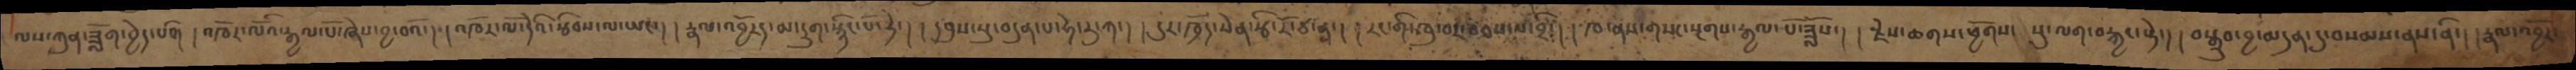ལས་ཀུན་ཟློག་བྱེད་པའི། །འཁོར་ལོའི་རྒྱལ་པོ་ཞེས་བྱ་བའི་། །འཁོར་ལོ་དེའི་རྩིབས་ལ་ཡང་། །རྣལ་འབྱོརད་མ་དྲུག་སྙིང་པོ་ཏེ་། །དབུས་བུ་བདུན་པ་ཧེ་རུ་ཀ་། །དུད་ཁྲོད་སེན་རྩི་རོ་ཙ་ན་། །རང་གི་ཁུ་བར་བཅས་པ་བྲི་། །ཁ་ནས་གསང་སྔགས་རྒྱལ་པོ་ཟློས་། །རྗེས་ཆགས་ཕྱོགས་སུ་ལག་བརྐྱང་སྟེ་། །བསྒྲུབ་བྱ་མདུན་དུ་བསམས་ནས་ནི་། །རྣལ་འབྱོར་
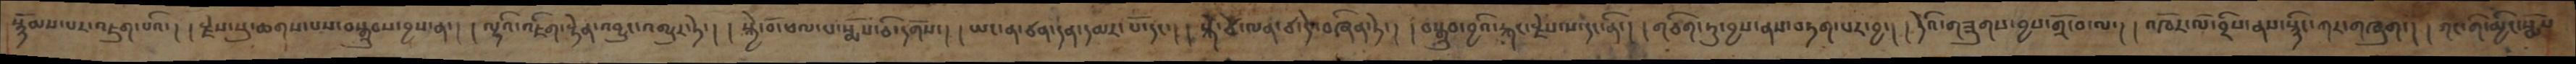སྙོམས་པར་འཇུག་པའི་། །རྗེས་སུ་ཆགས་པས་བསྒྲུབ་བྱས་ན་། །ལྷའི་འཇིག་རྟེན་འབྱུང་འགྱུར་ཏེ་། ། སྐྱེ་བོ་ཕལ་པ་སྨོས་ཅི་དགོས་། །ཡང་ན་ཙན་དན་དམར་པོ་དང་། །སྐེ་ཙེ་ལན་ཙ་དེ་བཞིན་ཏེ་། །བསྒྲུབ་བྱའི་རྐང་རྗེས་ས་དང་ནི་། །གཅིག་དུ་བྱས་ནས་བཏག་པར་བྱ་། ། དེའི་གཟུགས་བྱས་གྲོ་བ་ལ་། ། འཁོར་ལོ་བྲིས་ནས་སྙིང་ཀར་གཞུག་། །གང་གི་མྱིང་སྨོས
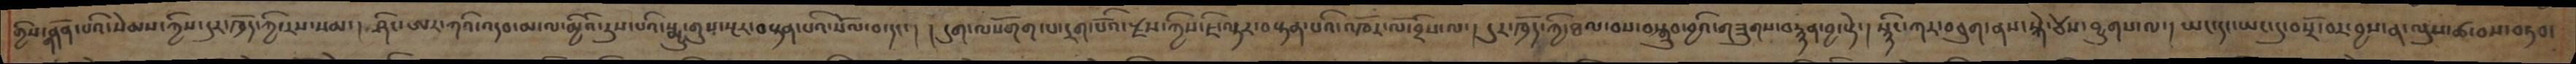གྱིས་གནོན་པའི་སེམས་ཀྱིས་དུར་ཁྲོད་ཀྱི་རས་སམ་། ཤིང་ཨར་ཀའི་འདབ་མ་ལ་མྱིའི་རུས་པའི་སྨྱུ་གུས་སྔར་བསྟན་པའི་སོལ་བ་དང་། །དུག་ལསོགག་པ་དྲག་པོའི་རྫས་ཀྱིས་ཇི་ལྟར་བསྟན་པའི་འཁོར་ལོ་བྲིས་ལ་། དུར་ཁྲོད་ཀྱི་ཐལ་བས་བསྒྲུབ་བྱའི་གཟུགས་བརྙན་བྱ་སྟེ་། སྙིང་ཀར་བཅུག་ནས་སྐེ་ཙེས་བྱུགས་ལ། ཡང་དང་ཡང་དུ་བསྲོ་བར་བྱས་ནས་ལུས་ཚ་བས་བཏབ་
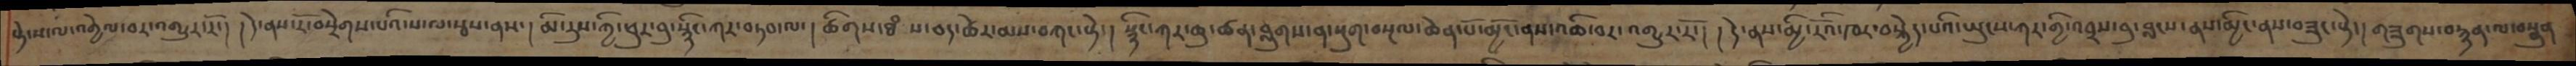སྟེ་ས་ལ་འགྱེལ་བར་འགྱུར་རོ་། །དེ་ནས་རོ་བསྲེགས་པའི་ས་ལ་རྩས་ནས་། མི་རུས་ཀྱི་ཕུར་བུ་སྙིང་ཀར་བཏབ་ལ་། ཚིགས་ཐཾས་ཅད་ཚེར་མས་བཀང་སྟེ་། སྙིང་ཀར་ཆུ་ཚན་བླུགས་ན་སྡུག་བསྔལ་ཆེན་པོ་མྱོང་ནས་འཆི་བར་འགྱུར་རོ་། །དེ་ནས་མྱི་རོའི་ཁར་བསྐྱེད་པའི་ཡུངས་ཀར་གྱི་འབྲས་བུ་བླངས་ནས་མྱིང་ནས་བཟུང་སྟེ་། གཟུགས་བརྙན་ལ་བསྣུན
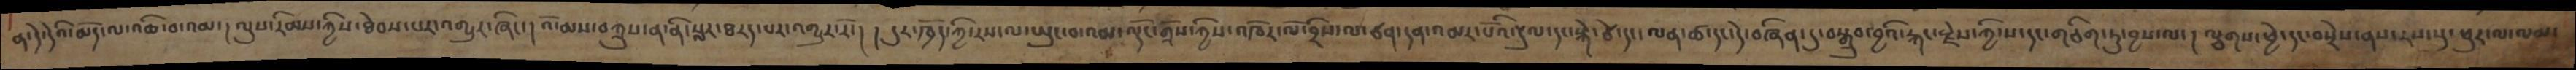ན་དེ་དེའི་མོད་ལ་འཆི་བ་འམ་། ལུས་རིམས་ཀྱིས་ཐེབས་པར་འགྱུར་ཞིང་། འོ་མས་བཀྲུས་ན་ནི་སླར་ཐརད་པར་འགྱུར་རོ་། །དུར་ཁྲོད་ཀྱི་རས་ལ་ཡུང་བ་འམ་ལྡོང་གྲོས་ཀྱི་འཁོར་ལོ་བྲིས་ལ་ཙན་དན་འམར་པོའི་རྡུལ་དང་སྐེ་ཙེ་དང་ལན་ཚ་དང་དེ་བཞིན་དུ་བསྒྲུབ་བྱའི་རྐང་རྗེས་ཀྱི་ས་དང་གཅིག་ཏུ་བྱས་ལ་། ལྕགས་ཕྱེ་དང་བསྲེས་ནས་རས་སུ་ཕུར་མ་ལམ་
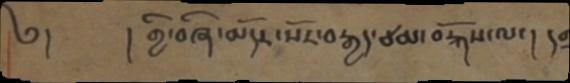༄།         ། གྱི་བཞི་མདོར་སོར་བརྒྱད་ཙམ་བརྐོས་ལ་། །གྲ
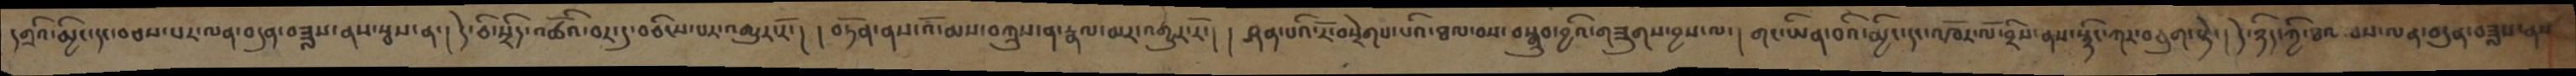དགྲའི་མྱིང་དང་བཅས་པར་ལན་བདུན་བཟླས་ནས་སྦས་ན་། དེ་ཅི་སྲིད་འཚོའི་བར་དུ་བཅིངས་པར་འགྱུར་རོ་། །བཏོན་ནས་འོ་མས་བཀྲུས་ན་རྣལ་མར་འགྱུར་རོ་། །ཤན་པའི་རོ་བསྲེགས་པའི་ཐལ་བས་བསྒྲུབ་བྱའི་གཟུགས་བྱས་ལ་། གང་ཡིན་བའི་མྱིང་དང་འཁོར་ལོ་བྲིས་ནས་སྙིང་ཀར་བཅུག་སྟེ་། དེ་ཉིད་ཀྱི་ཐལ་བས་ལན་བདུན་བཟླས་ནས
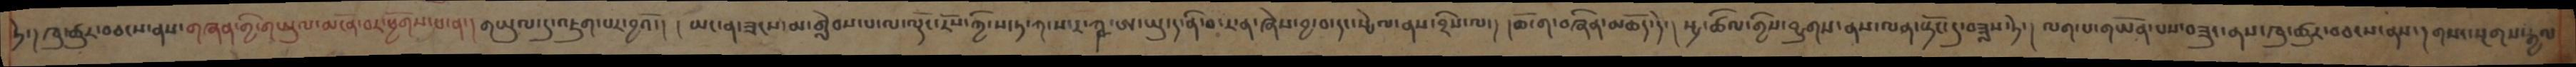ཏེ་།ཁུ་ཚུར་བཅངས་ནས་གཞན་གྱི་གཡུལ་མངོན་བར་ཕྱོགས་པ་ན་།གཡུལ་དུ་འཇུག་པར་བྱའོ་། །ཡང་ན་ཟངས་མ་གླེབས་པ་ལ་ལྡོང་རོས་ཀྱི་ས་ཏ་ཀ་ས་ར་ཀྵ་ཨ་ཡུ་ད་ནི་བ་ར་ན་ཞེས་བྱ་བ་དང་སྤེལ་བྲིས་ལ་། །ཆོ་ག་བཞིན་མཆོད་དེ་། སྤྲ་ཚིལ་གྱིས་བྱུགས་ནས་ལན་སྟོང་དུ་བཟླས་ཏེ་། ལག་པ་གཡོན་པས་བཟུང་ནས་ཁུ་ཚུར་བཅངས་ནས་།གསང་སྔགས་རྒྱལ་
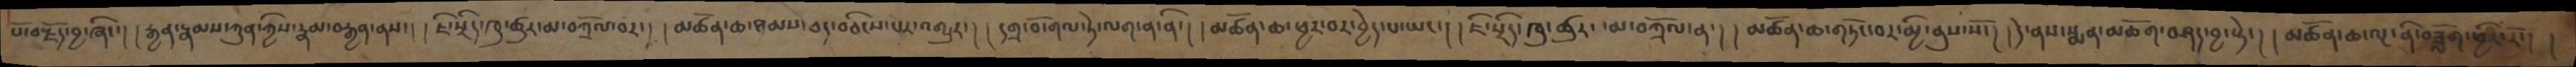པོ་བརྗོད་བྱ་ཞིང་། །རྒྱན་རྣམས་ཀུན་ཀྱིས་རྣམ་བརྒྱན་ནས་། །ཇི་སྲིད་ཁུ་ཚུར་མ་བཀྲོལ་བར་། །མཚོན་ཆ་ཐམས་ཅད་བཅིངས་པར་འགྱུར་། །དགྲ་བོ་གལ་ཏེ་ལག་ན་ནི་། །མཚོན་ཆ་ཕྱར་བར་བྱེད་པ་ཡང་། །ཇི་སྲིད་ཁུ་ཚུར་་མ་བཀྲོལ་ན་། །མཚོན་ཆ་གཏོང་བར་མྱི་ནུས་སོ་། །དེ་ནས་སྨན་མཆོག་བཤད་བྱ་སྟེ་། །མཚོན་ཆ་ལྔ་ནི་བཟློག་ཕྱིར་རོ་། །
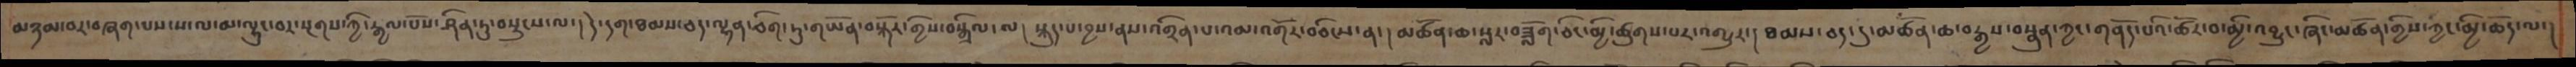མཉམ་པར་བཞག་པས་ས་ལ་མ་ལྷུང་བར་སྔགས་ཀྱི་རྒྱལ་པོས་ཤིན་ཏུ་བསྲུངས་ལ་།དེ་དག་ཐམས་ཅད་ལྷན་ཅིག་ཏུ་གཡོན་བསྐོར་གྱིས་བསྒྲིལ་ལ་། སྐུད་པ་བྱས་ནས་འགྲིན་པ་འམ་འགོར་བཅིངས་ན་། མཚོན་ཆ་སླར་བཟློག་ཅིང་མྱི་ཚུགས་པར་འགྱུར་། ཐམས་ཅད་དུ་མཚོན་ཆ་བརྒྱས་བསྣུན་ཀྱང་གནོད་པའི་ཚོར་བ་མྱི་འབྱུང་ཞིང་མཚོན་གྱིས་ཀྱང་མྱི་ཆོད་ལ་།
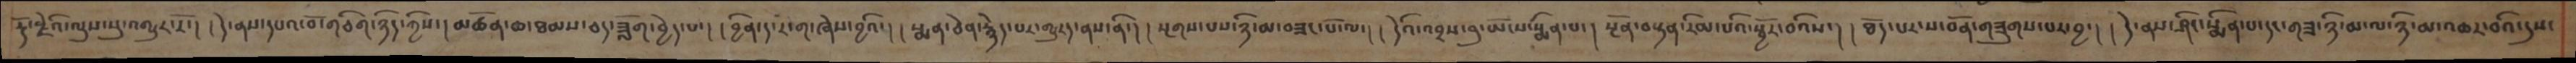རྡོ་རྗེའི་ལུས་སུ་འགྱུར་རོ་། །དེ་ནས་དཔའ་བོ་གཅིག་ཉིད་ཀྱིས་། །མཚོན་ཆ་ཐམས་ཅད་ཟློག་བྱེད་པ་། །བྱིན་ད་རེ་ག་ཞེས་བྱའི་། །སྨན་ཅེན་རྙེད་པར་གྱུརད་ནས་ནི་། །སྔགས་པས་ཉི་མ་བཟང་པོ་ལ་། །དེའི་འབྲས་བུ་ཡོངས་སྨིན་པ་། །སྔོན་བསྟན་རིམ་པའི་སྦྱོར་བའིས་། །ཐོད་པར་ས་བོན་གཟུགས་པར་བྱ་། །དེ་ནས་ཤིང་སྨིན་པ་དང་གཟ་ཉི་མ་ལ་ཉི་མ་འཆར་བའི་དུས་
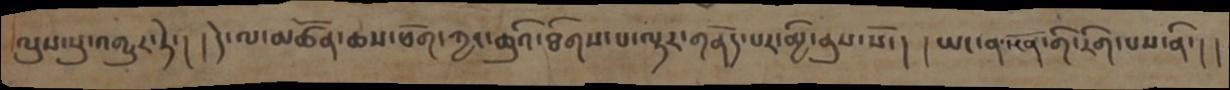ལུས་སུ་འགྱུར་ཏེ་། །དེ་ལ་མཚོན་ཆས་ཕོག་ཀྱང་ཆུའི་ཐིགས་པ་ལྟར་གནོད་པར་མྱི་ནུས་སོ་། །ཡང་ན་སྔོན་གི་རིག་པས་ནི་། །
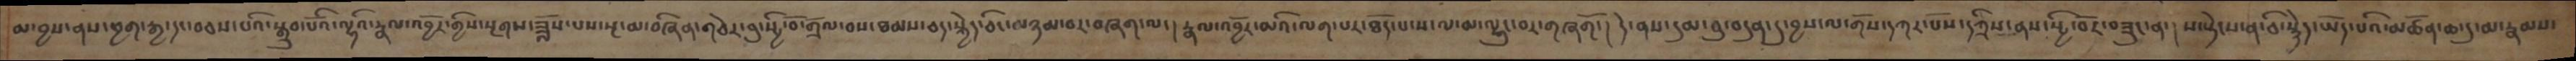མ་བྱས་ནས་ཕྱག་རྒྱ་དང་བཅས་པའི་སྒྲུབ་པོའི་ལྷའི་རྣལ་འབྱོར་གྱིས་སྔགས་ཟློས་པས་སྔ་མ་བཞིན་གཅེར་བུ་སྤྱི་བོ་གྲོལ་བས་ཐམས་ཅད་སྐྱེད་ཅིང་མཉམ་བར་བཞག་ལ་། རྣལ་འབྱོར་མའི་ལག་པར་ཐོད་པ་ས་ལ་མ་ལྷུང་བར་གཞགོ་། དེ་ནས་དུམ་བུ་བདུན་དུ་བྱས་ལ་གོས་དཀར་པོས་དཀྲིས་ནས་སྤྱི་བོར་བཟུང་ན་། ས་སྟེངས་ན་ཅི་སྙེད་ཡོད་པའི་མཚོན་ཆ་དུ་མ་རྣམས་
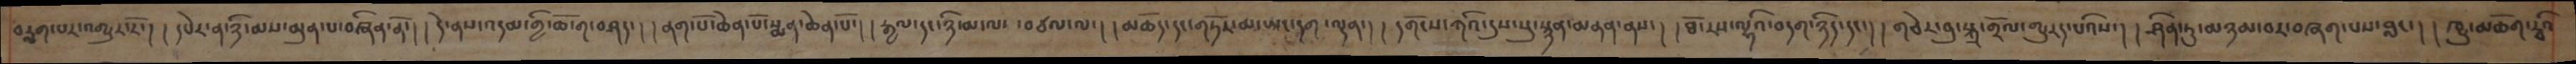བརླག་པར་འགྱུར་རོ་། །དཔེར་ན་ཉི་མས་མུན་པ་བཞིན་ནོ་། དེ་ནས་འདམ་གྱི་ཆོ་ག་བཤད་། །ནག་པོ་ཆེན་པོ་སྨན་ཆེན་པོ་། །རྒྱལ་དང་ཉི་མ་ལ་ བཙལ་ལ་། །མཆོད་དང་གཏོར་མ་ཡང་དག་ལྡན་། །དགོངས་ཀའི་དུས་སུ་སྙན་མནན་ནས་། །ཐོ་རས་ལྷའི་བདག་ཉིད་དང་། །གཅེར་བུ་སྐུ་གྲོལ་གྱུརད་པའིས་། ཤིན་ཏུ་མཉམ་བར་བཞག་པས་བླང་། །ཁྱུ་མཆོག་རྭའི
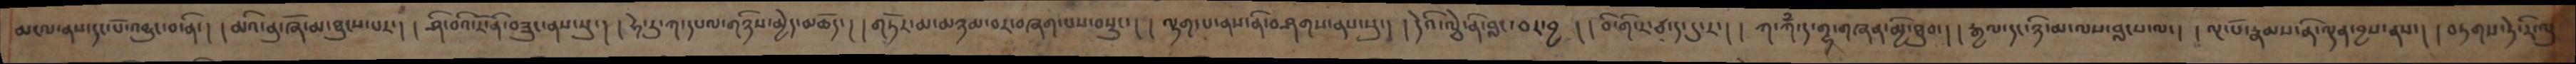མངལ་ནས་དང་པོ་འབྱུང་བ་ནི་། །མའི་ནུ་ཞོ་མ་ཐུངས་པར་།  །ཤི་བའི་རོ་ནི་བཟུང་ནས་སུ་། །ཧེ་རུ་ཀ་དཔལ་གཉིས་མྱེད་མཆོད་། །གཏོར་མ་མཉམ་བར་བཞག་པས་བསྲུང་། །ལྷག་པ་ནས་ནི་བཤགས་ནས་སུ་། །དེའི་ལྩེ་ནི་བླང་བར་བྱ་། །བི་གི་ར་ཙ་ད་དུ་ར་། །ཀ་ཀྃ་ཌ་གྷ་གཞན་མྱི་ཐུབ་། །རྒྱལ་དང་ཉི་མ་ལས་བླངས་ལ་། །ལྔ་པོ་རྣམས་ནི་ལྡན་བྱས་ནས་། །བཏགས་ཏེ་རི་ལུ
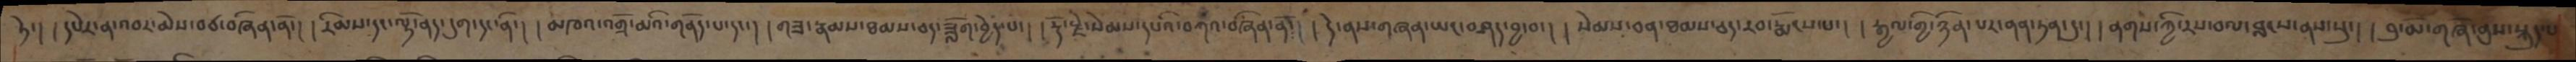ཏེ་། དཔེར་ན་འབར་མེས་བཙ་བཞིན་ནོ་། །རིམས་དང་ལྟེ་ནད་དུག་དུ་ནི་། །མཁའ་གྲོ་མའི་གནོད་པ་དང་། །གཟ་རྣམས་ཐམས་ཅད་ཟློག་བྱེད་པ་། །རྡོ་རྗེ་སེམས་དཔའི་བཀའ་བཞིན་ནོ་། །དེ་ནས་གཞན་ཡང་བཤད་བྱ་བ་། །སེམས་ཅན་ཐམས་ཅད་རབ་རྨོངས་པ་། །རྒྱལ་གྱི་ཉིན་པར་ནན་ཏན་དུ་། །ནགས་ཀྱི་རས་བལ་བླངས་ནས་སུ་། བུ་མོ་གཞོ་ནུས་སྐུད་པ་
